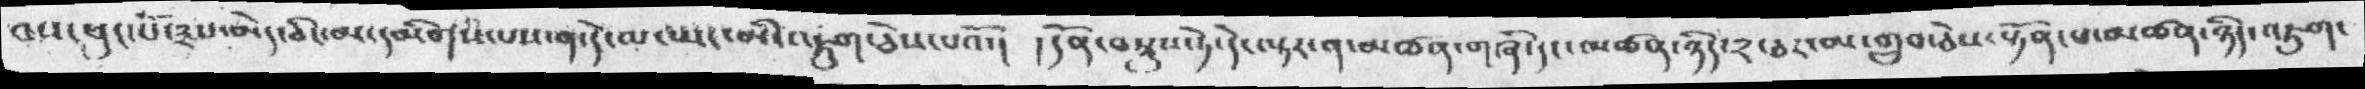བས་ཕུང་པོ་༣པ་མེད་ཅིང་མ་དམིགས་པས་ན་དེ་མ་ཡང་མི་འཇུག་ཅེས་པའོ་། །དོན་བསྡུས་ཏེ་དེ་ལྟར་ན་མཚན་གཞི་དང་མཚན་ཉིད་༢་ཅར་མ་གྲུབ་ཅེས་སྟོན་པ་མཚན་ཉིད་འཇུག་
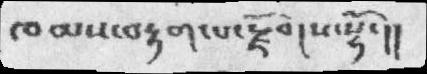ཁམས་བརྟག་པ་རྫོགསྷོ་།།
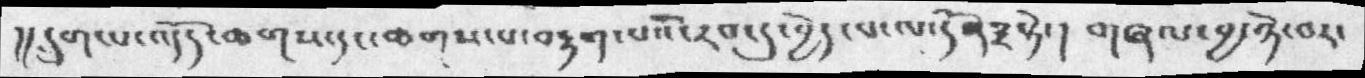།།དྲུག་པ་འདོད་ཆགས་དང་ཆགས་པ་བརྟག་པའི་རབ་དུ་བྱེད་པ་ལ་དོན༣སྟེ་།  གཞལ་བྱ་ཉེ་བར་
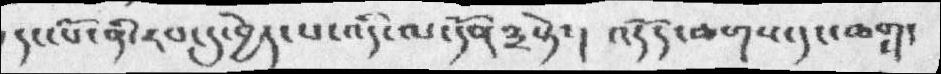དང་པོ་ནི་རབ་དུ་བྱེད་པ་འདི་ལ་དོན༣སྟེ་།   འདོད་ཆགས་དང་ཆགས་
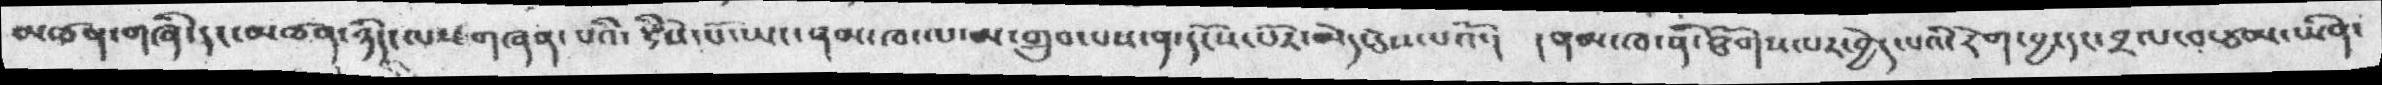མཚན་གཞི་དང་མཚན་ཉིད་ལས་གཞན་པའི་སྟི་སེ་པོ་ཡང་ནམ་ཁ་ལ་མ་གྲུབ་པས་ན་དངོས་པོར་མེད་ཅེས་པའོ་། ནམ་ཁ་ནི་ཐོགས་པར་བྱེད་པའི་རེག་བྱ་དང་བྲལ་བ་ཙམ་ཡིན་
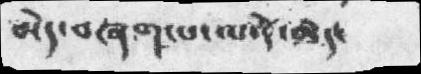མེད་བཞག་པ་ལ་དེ་མེད་
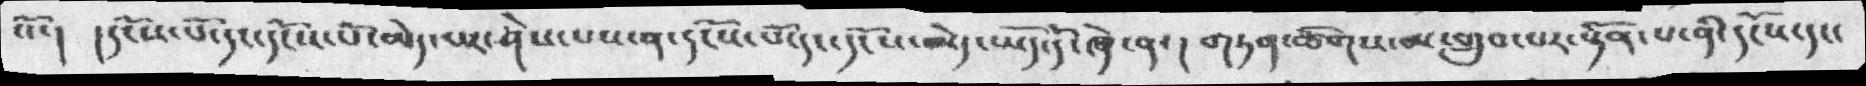སོ་།  །དངོས་པོ་དང་དངོས་པོ་མེད་པར་ཤེས་པས་ན་དངོས་པོ་དང་དངོས་མེད་ཡོད་དོ་ཞེ་ན་། གཏན་ཚིགས་མ་གྲུབ་པར་སྟོན་པ་ནི་དངོས་དང་
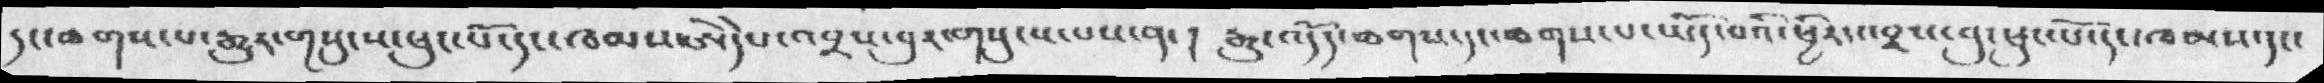དང་ཆགས་པ་རྒྱུར་གསུངས་ཕུང་པོ་དང་ཁམས་ཨེདེཔ་འབྲས་བུར་གསུངས་པས་ན་།  རྒྱུ་འདོད་ཆགས་དང་ཆགས་པ་ཡོད་པའི་ཕྱིར་འབྲས་བུ་ཕུང་པོ་དང་ཁམས་དང་
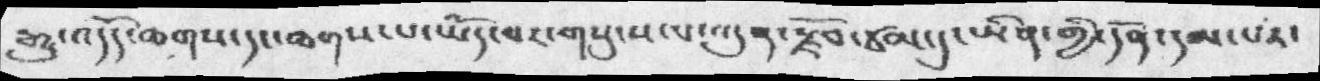རྒྱུ་འདོད་ཆགས་དང་ཆགས་པ་ཡོད་པར་གསུངས་པ་ཀུན་རྗོབ་ཙམ་དུ་ཡིན་གྱི་དོན་དམ་པར་
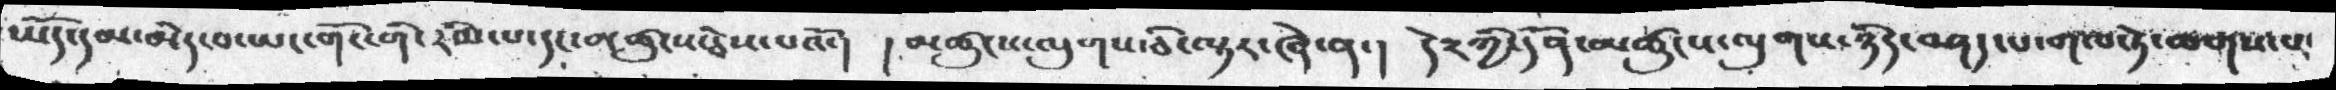ཡོད་དམ་མེད་པ་ཡང་གོང་གི་རིམ་པ་དང་མཚུངས་ཅེས་པའོ་།   །མཚུངས་ལུགས་ཅི་ལྟ་ཞེ་ན་།  དེ༢ཀྱི་དོན་མཚུངས་ལུགས་ཉིད་བཤད་པ་གལ་ཏེ་ཆགས་པ་
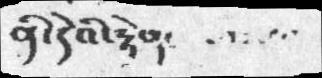ནི་དེའི་རྟེན་
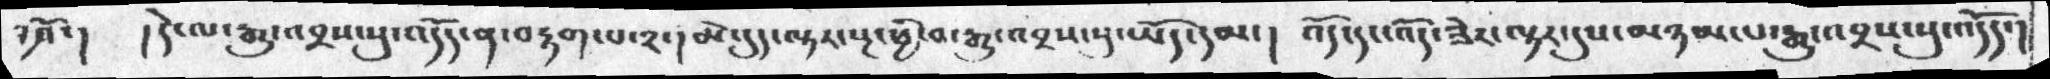བཤོ་།  ། དེ་ལ་རྒྱུ་འབྲས་སུ་འདོད་ན་བརྟག་པ་༢་། མེད་དུད་ལྟར་སྔ་ཕྱི་བ་རྒྱུ་འབྲས་སུ་ཡོད་དམ་།   འོད་དང་འོད་ཟེར་ལྟར་དུས་མཉམ་པ་རྒྱུ་འབྲས་སུ་འདོད་།
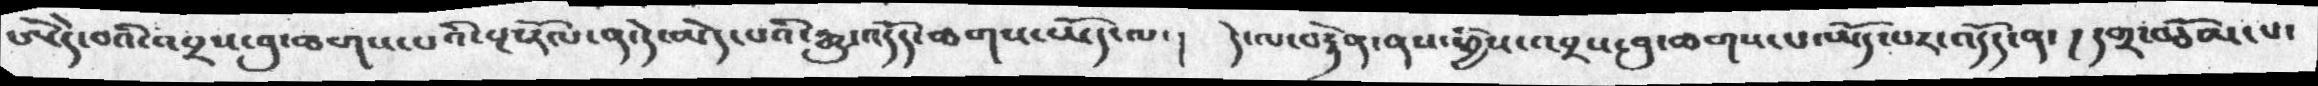ཨེདེ་བའི་འབྲས་བུ་ཆགས་པའི་སྔ་རོལ་ན་དེ་མེད་པའི་རྒྱུ་འདོད་ཆགས་ཡོད་ལ་།  དེ་ལ་བརྟེན་ནས་ཕྱིས་འབྲས་བུ་ཆགས་པ་ཡོད་པར་འདོད་ན་། དགྲ་བཅོམ་པ་
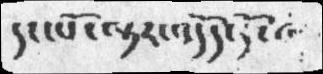དང་པོ་ལྟར་འདོད་དོ་ཞ
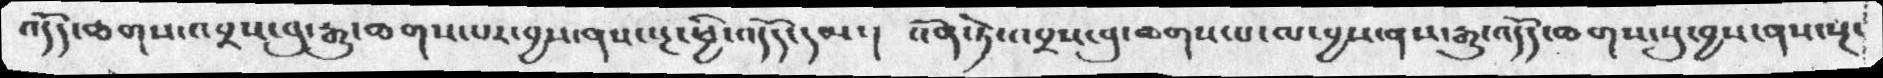འདོད་ཆགས་འབྲས་བུ་རྒྱུ་ཆགས་པར་བྱས་ནས་རྔ་ཕྱི་འདོད་དམ་།  འོན་ཏེ་འབྲས་བུ་ཆགས་པ་ལ་བྱས་ནས་རྒྱུ་འདོད་ཆགས་སུ་བྱས་ནས་སྔ་
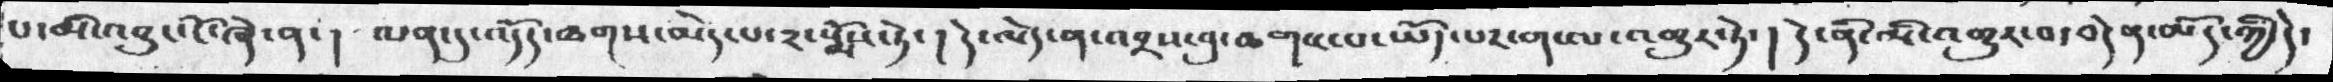པ་མི་འབྱུང་ངོ་ཞེ་ན་ ། ལན་དུ་འདོད་ཆགས་མེད་པ་༢་སྨོས་ཏེ་།  དེ་ལོད་ན་འབྲས་བུ་ཆགས་པ་ཡོད་པར་ག་ལ་འགྱུར་ཏེ་ ། དེ་ནི་མི་འགྱུར་བ་བདེན་མོད་ཀྱི་དེ་
